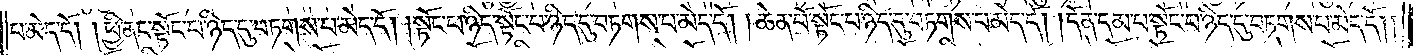པ་མེད་དོ། །ཕྱི་ནང་སྟོང་པ་ཉིད་དུ་བཏགས་པ་མེད་དོ། །སྟོང་པ་ཉིད་སྟོང་པ་ཉིད་དུ་བཏགས་པ་མེད་དོ། །ཆེན་པོ་སྟོང་པ་ཉིད་དུ་བཏགས་པ་མེད་དོ། །དོན་དམ་པ་སྟོང་པ་ཉིད་དུ་བཏགས་པ་མེད་དོ། །
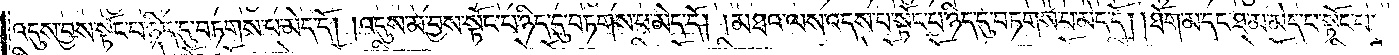འདུས་བྱས་སྟོང་པ་ཉིད་དུ་བཏགས་པ་མེད་དོ། །འདུས་མ་བྱས་སྟོང་པ་ཉིད་དུ་བཏགས་པ་མེད་དོ། །མཐའ་ལས་འདས་པ་སྟོང་པ་ཉིད་དུ་བཏགས་པ་མེད་དོ། །ཐོག་མ་དང་ཐ་མ་མེད་པ་སྟོང་པ་
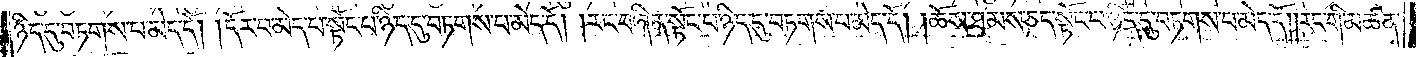ཉིད་དུ་བཏགས་པ་མེད་དོ། །དོར་བ་མེད་པ་སྟོང་པ་ཉིད་དུ་བཏགས་པ་མེད་དོ། །རང་བཞིན་སྟོང་པ་ཉིད་དུ་བཏགས་པ་མེད་དོ། །ཆོས་ཐམས་ཅད་སྟོང་པ་ཉིད་དུ་བཏགས་པ་མེད་དོ། །རང་གི་མཚན་
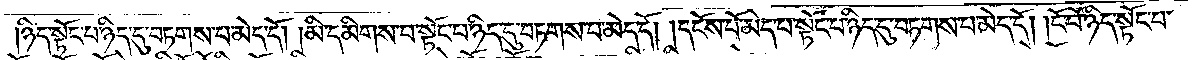ཉིད་སྟོང་པ་ཉིད་དུ་བཏགས་པ་མེད་དོ། །མི་དམིགས་པ་སྟོང་པ་ཉིད་དུ་བཏགས་པ་མེད་དོ། །དངོས་པོ་མེད་པ་སྟོང་པ་ཉིད་དུ་བཏགས་པ་མེད་དོ། །ངོ་བོ་ཉིད་སྟོང་པ་
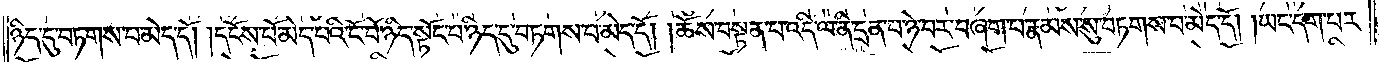ཉིད་དུ་བཏགས་པ་མེད་དོ། །དངོས་པོ་མེད་པའི་ངོ་བོ་ཉིད་སྟོང་པ་ཉིད་དུ་བཏགས་པ་མེད་དོ། །ཆོས་བསྟན་པ་འདི་ལ་ནི་དྲན་པ་ཉེ་བར་བཞག་པ་རྣམས་སུ་བཏགས་པ་མེད་དོ། །ཡང་དག་པར་
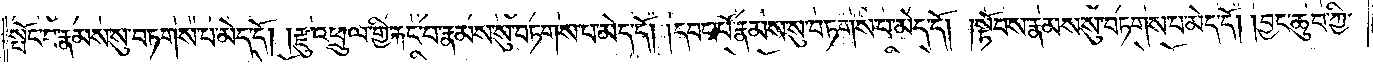སྤོང་བ་རྣམས་སུ་བཏགས་པ་མེད་དོ། །རྫུ་འཕྲུལ་གྱི་རྐང་པ་རྣམས་སུ་བཏགས་པ་མེད་དོ། །དབང་པོ་རྣམས་སུ་བཏགས་པ་མེད་དོ། །སྟོབས་རྣམས་སུ་བཏགས་པ་མེད་དོ། །བྱང་ཆུབ་ཀྱི་
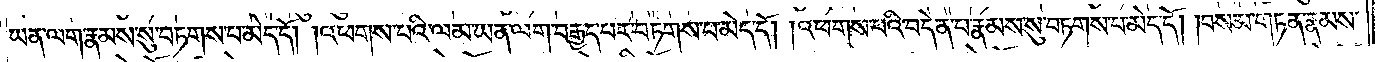ཡན་ལག་རྣམས་སུ་བཏགས་པ་མེད་དོ། །འཕགས་པའི་ལམ་ཡན་ལག་བརྒྱད་པར་བཏགས་པ་མེད་དོ། །འཕགས་པའི་བདེན་པ་རྣམས་སུ་བཏགས་པ་མེད་དོ། །བསམ་གཏན་རྣམས་
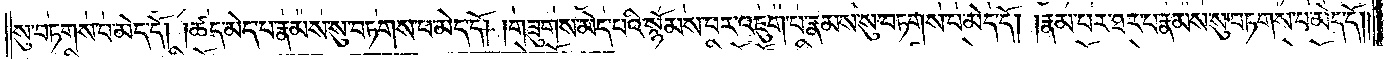སུ་བཏགས་པ་མེད་དོ། །ཚད་མེད་པ་རྣམས་སུ་བཏགས་པ་མེད་དོ། །གཟུགས་མེད་པའི་སྙོམས་པར་འཇུག་པ་རྣམས་སུ་བཏགས་པ་མེད་དོ། །རྣམ་པར་ཐར་པ་རྣམས་སུ་བཏགས་པ་མེད་དོ། །
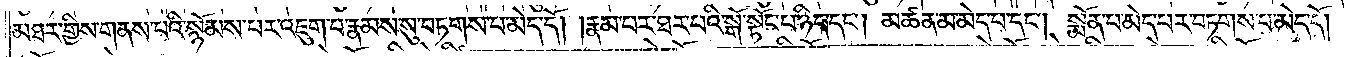མཐར་གྱིས་གནས་པའི་སྙོམས་པར་འཇུག་པ་རྣམས་སུ་བཏགས་པ་མེད་དོ། །རྣམ་པར་ཐར་པའི་སྒོ་སྟོང་པ་ཉིད་དང༌། མཚན་མ་མེད་པ་དང༌། སྨོན་པ་མེད་པར་བཏགས་པ་མེད་དོ། །
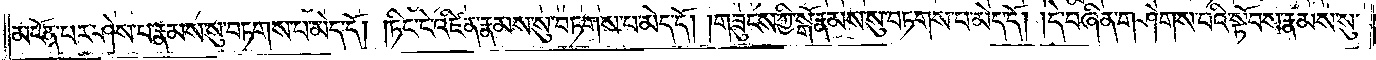མངོན་པར་ཤེས་པ་རྣམས་སུ་བཏགས་པ་མེད་དོ། །ཏིང་ངེ་འཛིན་རྣམས་སུ་བཏགས་པ་མེད་དོ། །གཟུངས་ཀྱི་སྒོ་རྣམས་སུ་བཏགས་པ་མེད་དོ། །དེ་བཞིན་གཤེགས་པའི་སྟོབས་རྣམས་སུ་
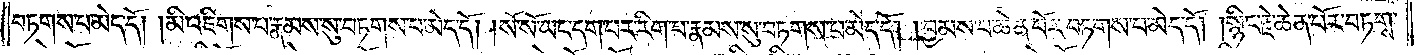བཏགས་པ་མེད་དོ། །མི་འཇིགས་པ་རྣམས་སུ་བཏགས་པ་མེད་དོ། །སོ་སོ་ཡང་དག་པར་རིག་པ་རྣམས་སུ་བཏགས་པ་མེད་དོ། །བྱམས་པ་ཆེན་པོར་བཏགས་པ་མེད་དོ། །སྙིང་རྗེ་ཆེན་པོར་བཏགས་
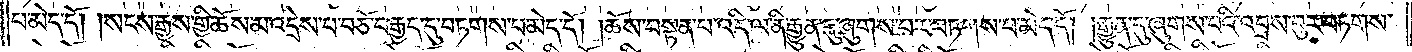པ་མེད་དོ། །སངས་རྒྱས་གྱི་ཆོས་མ་འདྲེས་པ་བཅོ་བརྒྱད་དུ་བཏགས་པ་མེད་དོ། །ཆོས་བསྟན་པ་འདི་ལ་ནི་རྒྱུན་དུ་ཞུགས་པར་བཏགས་པ་མེད་དོ། །རྒྱུན་དུ་ཞུགས་པའི་འབྲས་བུར་བཏགས་
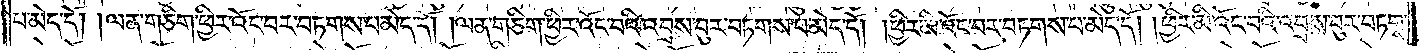པ་མེད་དོ། །ལན་ཅིག་ཕྱིར་འོང་བར་བཏགས་པ་མེད་དོ། །ལན་ཅིག་ཕྱིར་འོང་བའི་འབྲས་བུར་བཏགས་པ་མེད་དོ། །ཕྱིར་མི་འོང་བར་བཏགས་པ་མེད་དོ། །ཕྱིར་མི་འོང་བའི་འབྲས་བུར་བཏགས་
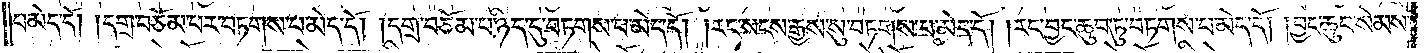པ་མེད་དོ། །དགྲ་བཅོམ་པར་བཏགས་པ་མེད་དོ། །དགྲ་བཅོམ་པ་ཉིད་དུ་བཏགས་པ་མེད་དོ། །རང་སངས་རྒྱས་སུ་བཏགས་པ་མེད་དོ། །རང་བྱང་ཆུབ་ཏུ་བཏགས་པ་མེད་དོ། །བྱང་ཆུབ་སེམས་
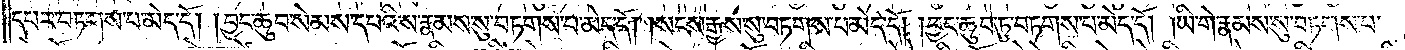དཔར་བཏགས་པ་མེད་དོ། །བྱང་ཆུབ་སེམས་དཔའི་ས་རྣམས་སུ་བཏགས་པ་མེད་དོ། །སངས་རྒྱས་སུ་བཏགས་པ་མེད་དོ། །བྱང་ཆུབ་ཏུ་བཏགས་པ་མེད་དོ། །ཡི་གེ་རྣམས་སུ་བཏགས་པ་
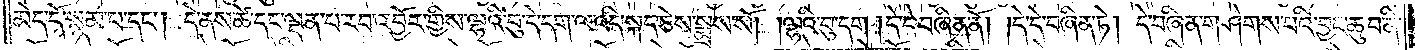མེད་དོ་སྙམ་པ་དང༌། དེ་ནས་ཚེ་དང་ལྡན་པ་རབ་འབྱོར་གྱིས་ལྷའི་བུ་དེ་དག་ལ་འདི་སྐད་ཅེས་སྨྲས་སོ། །ལྷའི་བུ་དག །དེ་དེ་བཞིན་ནོ། །དེ་དེ་བཞིན་ཏེ། དེ་བཞིན་གཤེགས་པའི་བྱང་ཆུབ་ནི་
